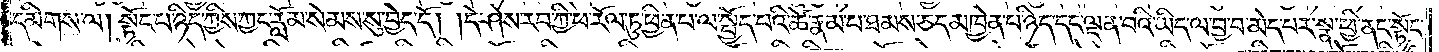དམིགས་ལ། སྟོང་པ་ཉིད་ཀྱིས་ཀྱང་རློམ་སེམས་སུ་བྱེད་དོ། །དེ་ཤེས་རབ་ཀྱི་ཕ་རོལ་ཏུ་ཕྱིན་པ་ལ་སྤྱོད་པའི་ཚེ་རྣམ་པ་ཐམས་ཅད་མཁྱེན་པ་ཉིད་དང་ལྡན་པའི་ཡིད་ལ་བྱ་བ་མེད་པར་སྣ་ཕྱི་ནང་སྟོང་
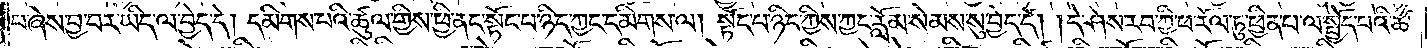པ་ཞེས་བྱ་བར་ཡིད་ལ་བྱེད་དེ། དམིགས་པའི་ཚུལ་གྱིས་ཕྱི་ནང་སྟོང་པ་ཉིད་ཀྱང་དམིགས་ལ། སྟོང་པ་ཉིད་ཀྱིས་ཀྱང་རློམ་སེམས་སུ་བྱེད་དོ། །དེ་ཤེས་རབ་ཀྱི་ཕ་རོལ་ཏུ་ཕྱིན་པ་ལ་སྤྱོད་པའི་ཚེ་
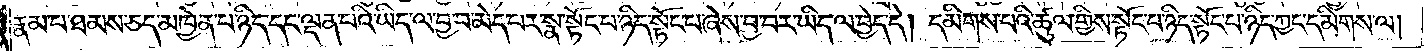རྣམ་པ་ཐམས་ཅད་མཁྱེན་པ་ཉིད་དང་ལྡན་པའི་ཡིད་ལ་བྱ་བ་མེད་པར་སྣ་སྟོང་པ་ཉིད་སྟོང་པ་ཞེས་བྱ་བར་ཡིད་ལ་བྱེད་དེ། དམིགས་པའི་ཚུལ་གྱིས་སྟོང་པ་ཉིད་སྟོང་པ་ཉིད་ཀྱང་དམིགས་ལ།
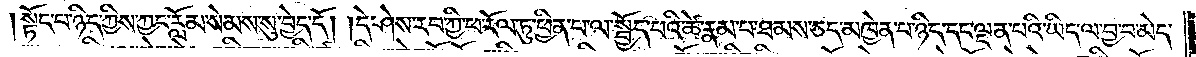སྟོང་པ་ཉིད་ཀྱིས་ཀྱང་རློམ་སེམས་སུ་བྱེད་དོ། །དེ་ཤེས་རབ་ཀྱི་ཕ་རོལ་ཏུ་ཕྱིན་པ་ལ་སྤྱོད་པའི་ཚེ་རྣམ་པ་ཐམས་ཅད་མཁྱེན་པ་ཉིད་དང་ལྡན་པའི་ཡིད་ལ་བྱ་བ་མེད་
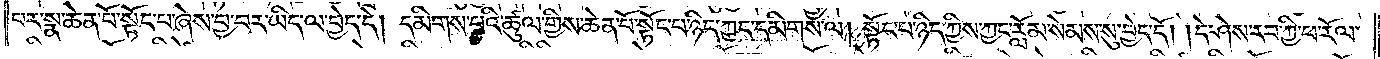པར་སྣ་ཆེན་པོ་སྟོང་པ་ཞེས་བྱ་བར་ཡིད་ལ་བྱེད་དེ། དམིགས་པའི་ཚུལ་གྱིས་ཆེན་པོ་སྟོང་པ་ཉིད་ཀྱང་དམིགས་ལ། སྟོང་པ་ཉིད་ཀྱིས་ཀྱང་རློམ་སེམས་སུ་བྱེད་དོ། །དེ་ཤེས་རབ་ཀྱི་ཕ་རོལ་
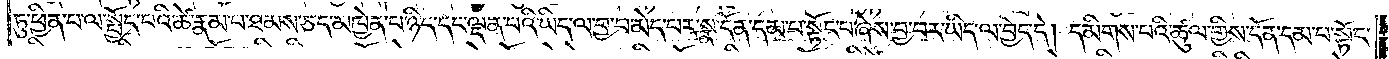ཏུ་ཕྱིན་པ་ལ་སྤྱོད་པའི་ཚེ་རྣམ་པ་ཐམས་ཅད་མཁྱེན་པ་ཉིད་དང་ལྡན་པའི་ཡིད་ལ་བྱ་བ་མེད་པར་སྣ་དོན་དམ་པ་སྟོང་པ་ཞེས་བྱ་བར་ཡིད་ལ་བྱེད་དེ། དམིགས་པའི་ཚུལ་གྱིས་དོན་དམ་པ་སྟོང་
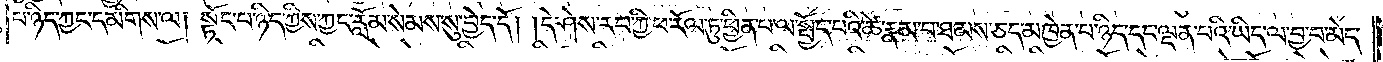པ་ཉིད་ཀྱང་དམིགས་ལ། སྟོང་པ་ཉིད་ཀྱིས་ཀྱང་རློམ་སེམས་སུ་བྱེད་དོ། །དེ་ཤེས་རབ་ཀྱི་ཕ་རོལ་ཏུ་ཕྱིན་པ་ལ་སྤྱོད་པའི་ཚེ་རྣམ་པ་ཐམས་ཅད་མཁྱེན་པ་ཉིད་དང་ལྡན་པའི་ཡིད་ལ་བྱ་བ་མེད་
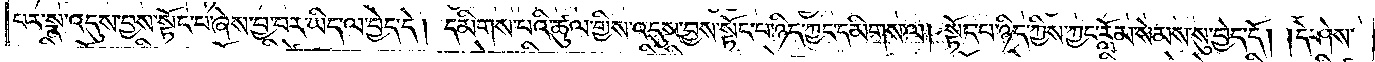པར་སྣ་འདུས་བྱས་སྟོང་པ་ཞེས་བྱ་བར་ཡིད་ལ་བྱེད་དེ། དམིགས་པའི་ཚུལ་གྱིས་འདུས་བྱས་སྟོང་པ་ཉིད་ཀྱང་དམིགས་ལ། སྟོང་པ་ཉིད་ཀྱིས་ཀྱང་རློམ་སེམས་སུ་བྱེད་དོ། །དེ་ཤེས་
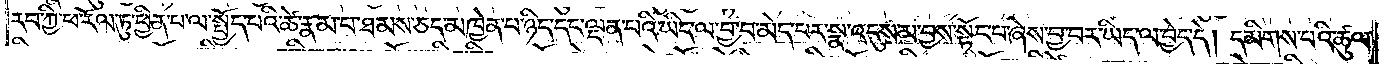རབ་ཀྱི་ཕ་རོལ་ཏུ་ཕྱིན་པ་ལ་སྤྱོད་པའི་ཚེ་རྣམ་པ་ཐམས་ཅད་མཁྱེན་པ་ཉིད་དང་ལྡན་པའི་ཡིད་ལ་བྱ་བ་མེད་པར་སྣ་འདུས་མ་བྱས་སྟོང་པ་ཞེས་བྱ་བར་ཡིད་ལ་བྱེད་དེ། དམིགས་པའི་ཚུལ་
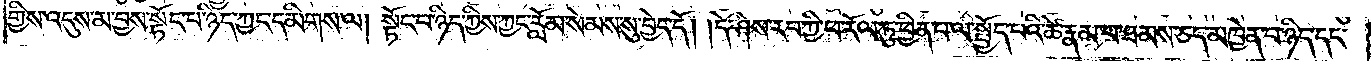གྱིས་འདུས་མ་བྱས་སྟོང་པ་ཉིད་ཀྱང་དམིགས་ལ། སྟོང་པ་ཉིད་ཀྱིས་ཀྱང་རློམ་སེམས་སུ་བྱེད་དོ། །དེ་ཤེས་རབ་ཀྱི་ཕ་རོལ་ཏུ་ཕྱིན་པ་ལ་སྤྱོད་པའི་ཚེ་རྣམ་པ་ཐམས་ཅད་མཁྱེན་པ་ཉིད་དང་
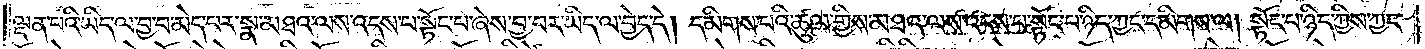ལྡན་པའི་ཡིད་ལ་བྱ་བ་མེད་པར་སྣ་མཐའ་ལས་འདས་པ་སྟོང་པ་ཞེས་བྱ་བར་ཡིད་ལ་བྱེད་དེ། དམིགས་པའི་ཚུལ་གྱིས་མཐའ་ལས་འདས་པ་སྟོང་པ་ཉིད་ཀྱང་དམིགས་ལ། སྟོང་པ་ཉིད་ཀྱིས་ཀྱང་
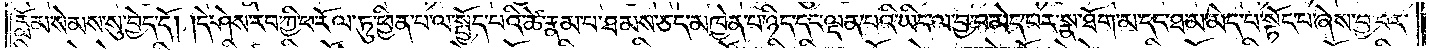རློམ་སེམས་སུ་བྱེད་དོ། །དེ་ཤེས་རབ་ཀྱི་ཕ་རོལ་ཏུ་ཕྱིན་པ་ལ་སྤྱོད་པའི་ཚེ་རྣམ་པ་ཐམས་ཅད་མཁྱེན་པ་ཉིད་དང་ལྡན་པའི་ཡིད་ལ་བྱ་བ་མེད་པར་སྣ་ཐོག་མ་དང་ཐ་མ་མེད་པ་སྟོང་པ་ཞེས་བྱ་བར་
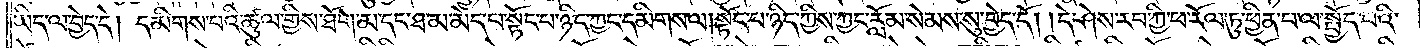ཡིད་ལ་བྱེད་དེ། དམིགས་པའི་ཚུལ་གྱིས་ཐོག་མ་དང་ཐ་མ་མེད་པ་སྟོང་པ་ཉིད་ཀྱང་དམིགས་ལ། སྟོང་པ་ཉིད་ཀྱིས་ཀྱང་རློམ་སེམས་སུ་བྱེད་དོ། །དེ་ཤེས་རབ་ཀྱི་ཕ་རོལ་ཏུ་ཕྱིན་པ་ལ་སྤྱོད་པའི་
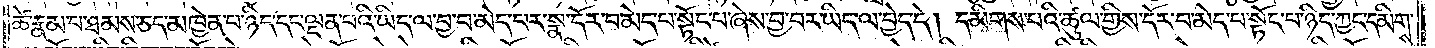ཚེ་རྣམ་པ་ཐམས་ཅད་མཁྱེན་པ་ཉིད་དང་ལྡན་པའི་ཡིད་ལ་བྱ་བ་མེད་པར་སྣ་དོར་བ་མེད་པ་སྟོང་པ་ཞེས་བྱ་བར་ཡིད་ལ་བྱེད་དེ། དམིགས་པའི་ཚུལ་གྱིས་དོར་བ་མེད་པ་སྟོང་པ་ཉིད་ཀྱང་དམིགས་
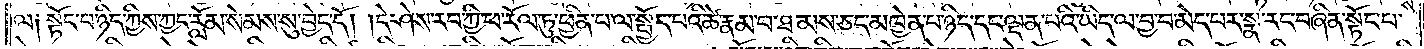ལ༑ སྟོང་པ་ཉིད་ཀྱིས་ཀྱང་རློམ་སེམས་སུ་བྱེད་དོ། །དེ་ཤེས་རབ་ཀྱི་ཕ་རོལ་ཏུ་ཕྱིན་པ་ལ་སྤྱོད་པའི་ཚེ་རྣམ་པ་ཐམས་ཅད་མཁྱེན་པ་ཉིད་དང་ལྡན་པའི་ཡིད་ལ་བྱ་བ་མེད་པར་སྣ་རང་བཞིན་སྟོང་པ་
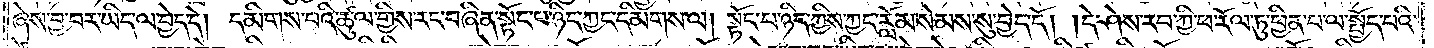ཞེས་བྱ་བར་ཡིད་ལ་བྱེད་དེ། དམིགས་པའི་ཚུལ་གྱིས་རང་བཞིན་སྟོང་པ་ཉིད་ཀྱང་དམིགས་ལ། སྟོང་པ་ཉིད་ཀྱིས་ཀྱང་རློམ་སེམས་སུ་བྱེད་དོ། །དེ་ཤེས་རབ་ཀྱི་ཕ་རོལ་ཏུ་ཕྱིན་པ་ལ་སྤྱོད་པའི་
